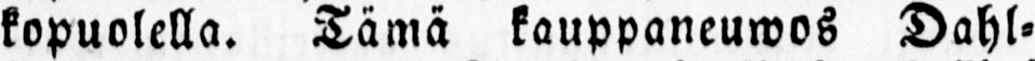kopuolella. Tämä kauppaneuwos Dahl-
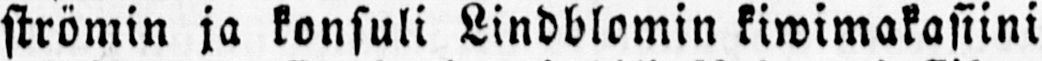strömin ja konsuli Lindblomin kiwimakasiini
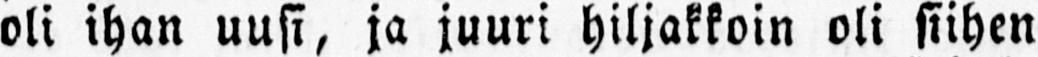oli ihan uusi, ja juuri hiljakkoin oli siihen
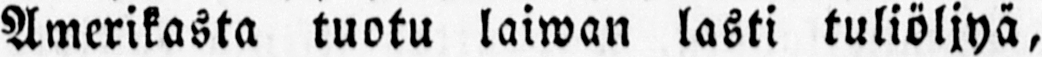Amerikasta tuotu laiwan lasti tuliöljyä,
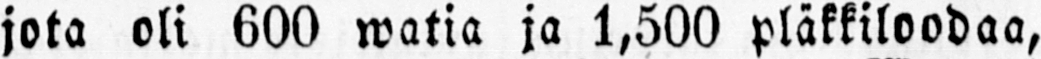jota oli 600 watia ja 1,500 pläkkiloodaa,
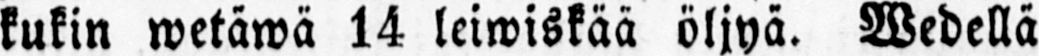kukin wetäwä 14 leiwiskää öljyä. Wedellä
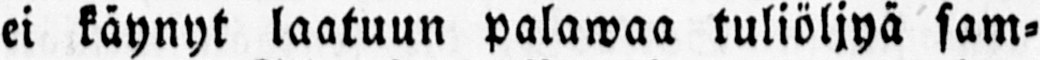ei käynyt laatuun palawaa tuliöljyä sam-
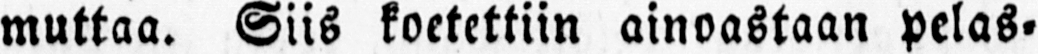muttaa. Siis koetettiin ainoastaan pelas-
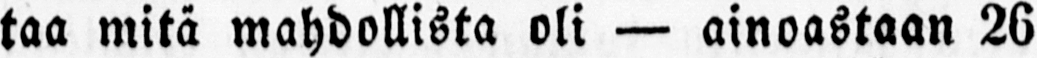taa mitä mahdollista oli — ainoastaan 26
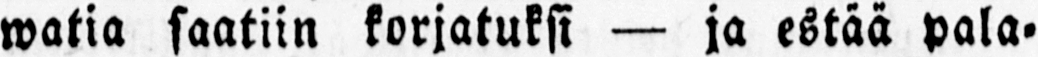watia saatiin korjatuksi — ja estää pala-
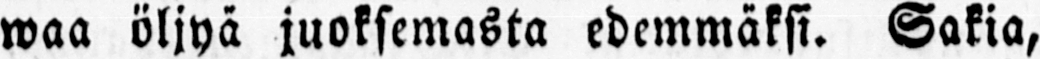waa öljyä juoksemasta edemmäksi. Sakia,
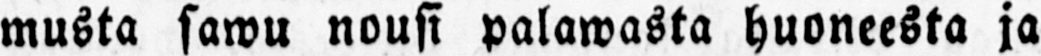musta sawu nousi palawasta huoneesta ja
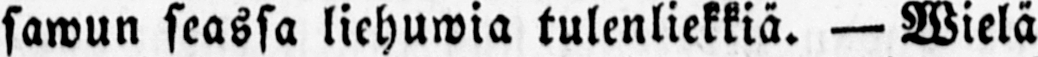sawun seassa liehuwia tulenliekkiä. — Wielä
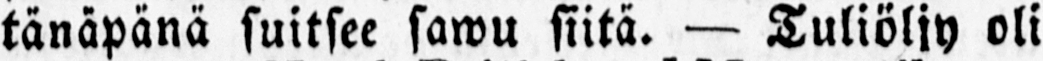tänäpänä suitsee sawu siitä. — Tuliöljy oli
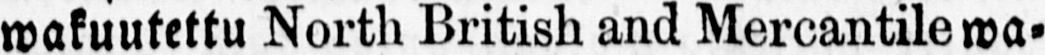wakuutettu North British and Mercantile wa-
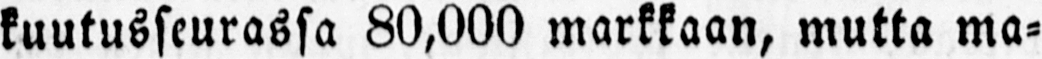kuutusseurassa 80,000 markkaan, mutta ma-
